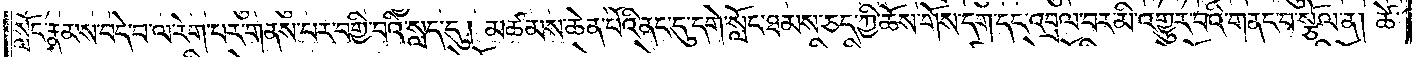སློང་རྣམས་བདེ་བ་ལ་རེག་པར་གནས་པར་བགྱི་བའི་སླད་དུ། མཚམས་ཆེན་པོའི་ནང་དུ་དགེ་སློང་ཐམས་ཅད་ཀྱི་ཆོས་གོས་དག་དང་འབྲལ་བར་མི་འགྱུར་བའི་གནང་བ་སྩོལ་ན། ཚེ་
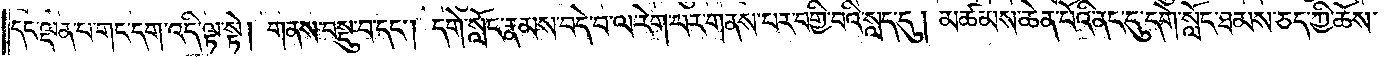དང་ལྡན་པ་གང་དག་འདི་ལྟ་སྟེ། གནས་བསྡུ་བ་དང༌། དགེ་སློང་རྣམས་བདེ་བ་ལ་རེག་པར་གནས་པར་བགྱི་བའི་སླད་དུ། མཚམས་ཆེན་པོའི་ནང་དུ་དགེ་སློང་ཐམས་ཅད་ཀྱི་ཆོས་
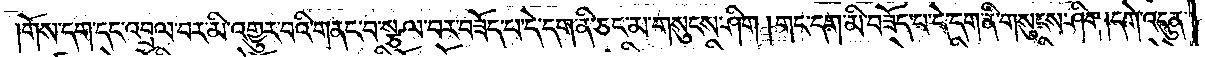གོས་དག་དང་འབྲལ་བར་མི་འགྱུར་བའི་གནང་བ་སྩལ་བར་བཟོད་བ་དེ་དག་ནི་ཅང་མ་གསུངས་ཤིག །གང་དག་མི་བཟོད་པ་དེ་དག་ནི་གསུངས་ཤིག །དགེ་འདུན་
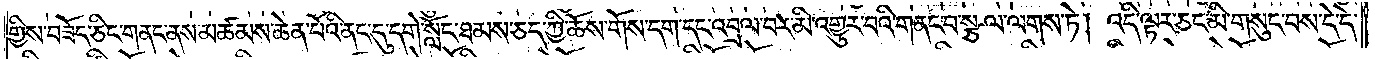གྱིས་བཟོད་ཅིང་གནང་ནས་མཚམས་ཆེན་པོའི་ནང་དུ་དགེ་སློང་ཐམས་ཅད་ཀྱི་ཆོས་གོས་དག་དང་འབྲལ་བར་མི་འགྱུར་བའི་གནང་བ་སྩལ་ལགས་ཏེ། འདི་ལྟར་ཅང་མི་གསུང་བས་དེ་དེ་
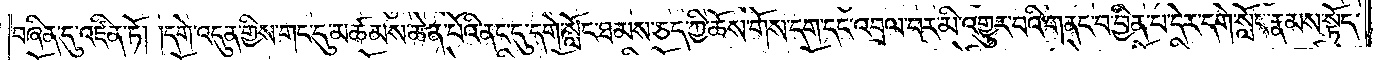བཞིན་དུ་འཛིན་ཏོ། །དགེ་འདུན་གྱིས་གང་དུ་མཚམས་ཆེན་པོའི་ནང་དུ་དགེ་སློང་ཐམས་ཅད་ཀྱི་ཆོས་གོས་དག་དང་འབྲལ་བར་མི་འགྱུར་བའི་གནང་བ་བྱིན་པ་དེར་དགེ་སློང་རྣམས་སྟོད་
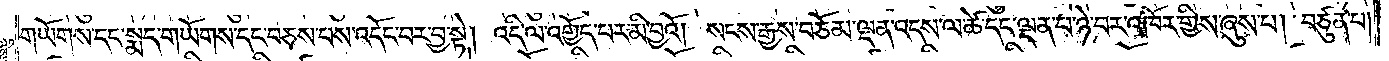གཡོགས་དང་སྨད་གཡོགས་དང་བཅས་པས་འདོང་བར་བྱ་སྟེ། འདི་ལ་འགྱོད་པར་མི་བྱའོ། སངས་རྒྱས་བཅོམ་ལྡན་འདས་ལ་ཚེ་དང་ལྡན་པ་ཉེ་བར་འཁོར་གྱིས་ཞུས་པ། བཙུན་པ།
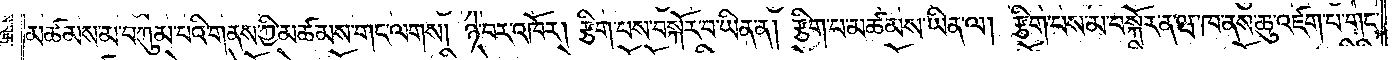མཚམས་མ་བཀུམ་པའི་གནས་ཀྱི་མཚམས་གང་ལགས། ཉེ་བར་འཁོར། རྩིག་པས་བསྐོར་བ་ཡིན་ན། རྩིག་པ་མཚམས་ཡིན་ལ། རྩིག་པས་མ་བསྐོར་ན་ཝ་ཁ་ནས་ཆུ་འཛག་པ་གང་
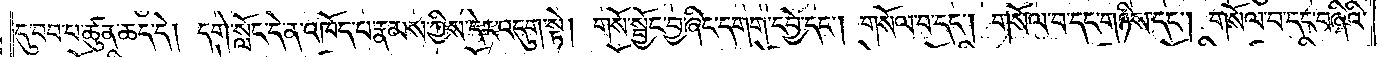དུ་བབ་པ་ཚུན་ཆད་དེ། དགེ་སློང་དེ་ན་འཁོད་པ་རྣམས་ཀྱིས་དེར་འདུག་སྟེ། གསོ་སྦྱོང་བྱ་ཞིང་དགག་དབྱེ་དང༌། གསོལ་བ་དང༌། གསོལ་བ་དང་གཉིས་དང༌། གསོལ་བ་དང་བཞིའི་
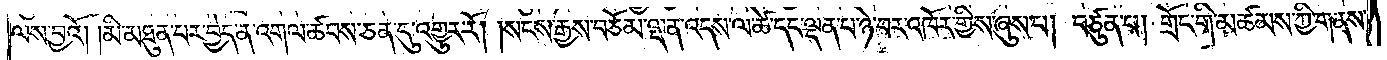ལས་བྱའོ། །མི་མཐུན་པར་བྱེད་ན་འགལ་ཚབས་ཅན་དུ་འགྱུར་རོ། །སངས་རྒྱས་བཅོམ་ལྡན་འདས་ལ་ཚེ་དང་ལྡན་པ་ཉེ་བར་འཁོར་གྱིས་ཞུས་པ། བཙུན་པ། གྲོང་གི་མཚམས་ཀྱི་གནས་
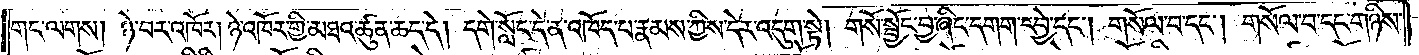གང་ལགས། ཉེ་བར་འཁོར། ཉེ་འཁོར་གྱི་མཐའ་ཚུན་ཆད་དེ། དགེ་སློང་དེ་ན་འཁོད་པ་རྣམས་ཀྱིས་དེར་འདུག་སྟེ། གསོ་སྦྱོང་བྱ་ཞིང་དགག་དབྱེ་དང༌། གསོལ་བ་དང༌། གསོལ་བ་དང་གཉིས་
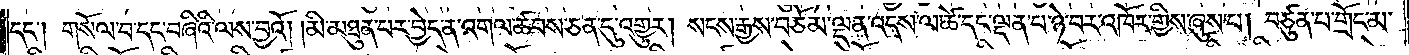དང༌། གསོལ་བ་དང་བཞིའི་ལས་བྱའོ། །མི་མཐུན་པར་བྱེད་ན་འགལ་ཚབས་ཅན་དུ་འགྱུར། སངས་རྒྱས་བཅོམ་ལྡན་འདས་ལ་ཚེ་དང་ལྡན་པ་ཉེ་བར་འཁོར་གྱིས་ཞུས་པ། བཙུན་པ་གྲོང་མ་
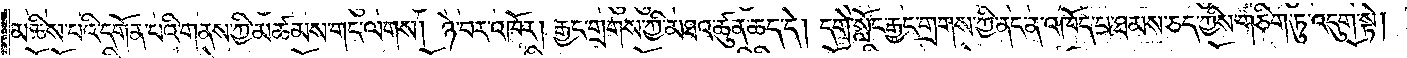མཆིས་པའི་དགོན་པའི་གནས་ཀྱི་མཚམས་གང་ལགས། ཉེ་བར་འཁོར། རྒྱང་གྲགས་ཀྱི་མཐའ་ཚུན་ཆད་དེ། དགེ་སློང་རྒྱང་གྲགས་ཀྱི་ནང་ན་འཁོད་པ་ཐམས་ཅད་ཀྱིས་གཅིག་ཏུ་འདུག་སྟེ།
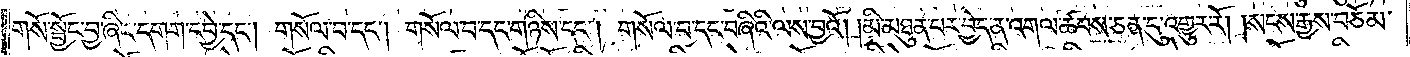གསོ་སྦྱོང་བྱ་ཞིང་དགག་དབྱེ་དང༌། གསོལ་བ་དང༌། གསོལ་བ་དང་གཉིས་དང༌། གསོལ་བ་དང་བཞིའི་ལས་བྱའོ། །མི་མཐུན་པར་བྱེད་ན་འགལ་ཚབས་ཅན་དུ་འགྱུར་རོ། །སངས་རྒྱས་བཅོམ་
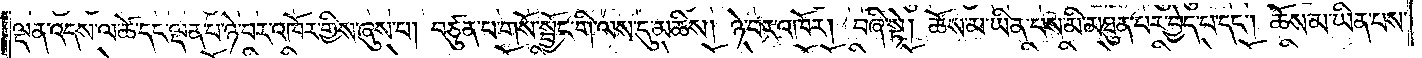ལྡན་འདས་ལ་ཚེ་དང་ལྡན་པ་ཉེ་བར་འཁོར་གྱིས་ཞུས་པ། བཙུན་པ་གསོ་སྦྱོང་གི་ལས་དུ་མཆིས། ཉེ་བར་འཁོར། བཞི་སྟེ། ཆོས་མ་ཡིན་པས་མི་མཐུན་པར་བྱེད་པ་དང༌། ཆོས་མ་ཡིན་པས་
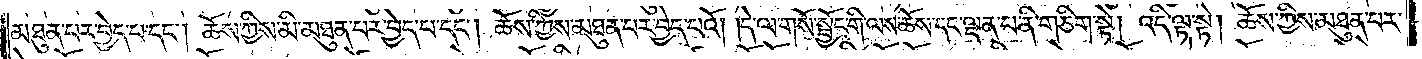མཐུན་པར་བྱེད་པ་དང༌། ཆོས་ཀྱིས་མི་མཐུན་པར་བྱེད་པ་དང༌། ཆོས་ཀྱིས་མཐུན་པར་བྱེད་པའོ། །དེ་ལ་གསོ་སྦྱོང་གི་ལས་ཆོས་དང་ལྡན་པ་ནི་གཅིག་སྟེ། འདི་ལྟ་སྟེ། ཆོས་ཀྱིས་མཐུན་པར་
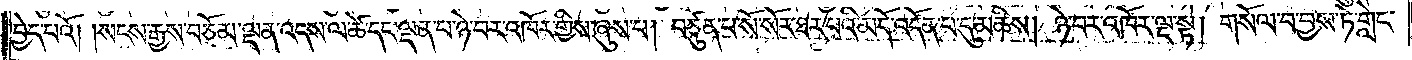བྱེད་པའོ། །སངས་རྒྱས་བཅོམ་ལྡན་འདས་ལ་ཚེ་དང་ལྡན་པ་ཉེ་བར་འཁོར་གྱིས་ཞུས་པ། བཙུན་པ་སོ་སོར་ཐར་པའི་མདོ་འདོན་པ་དུ་མཆིས། ཉེ་བར་འཁོར་ལྔ་སྟེ། གསོལ་བ་བྱས་ཏེ་གླེང་
